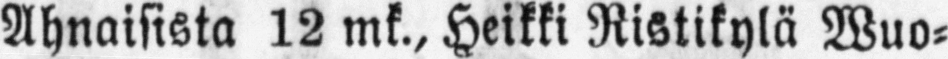Ahnaisista 12 mk., Heikki Ristikylä Wuo-
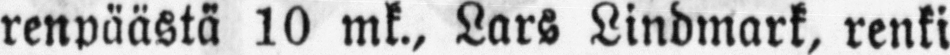renpäästä 10 mk., Lars Lindmark, renki
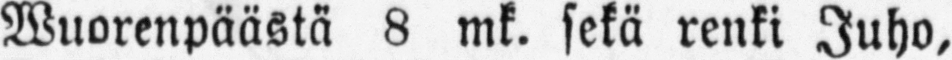Wuorenpäästä 8 mk. sekä renki Juho,
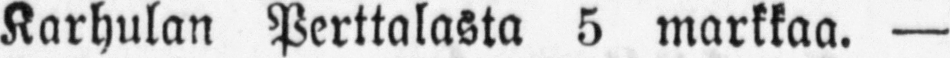Karhulan Perttalasta 5 markkaa. —
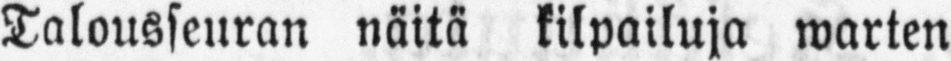Talousseuran näitä kilpailuja warten
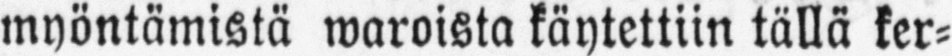myöntämistä waroista käytettiin tällä ker-
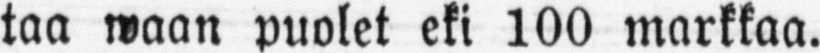taa waan puolet eki 100 markkaa.
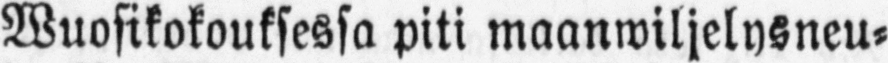Wuosikokouksessa piti maanwiljelysneu-
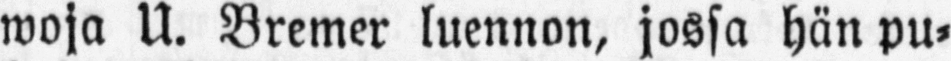woja U. Bremer luennon, jossa hän pu-
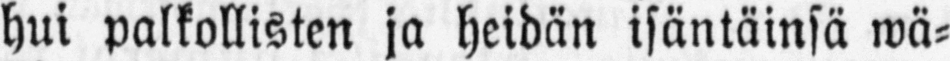hui palkollisten ja heidän isäntäinsä wä-
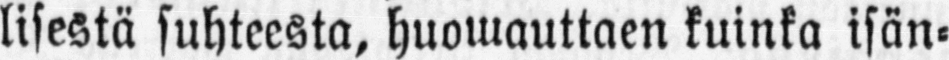lisestä suhteesta, huowauttaen kuinka isän-
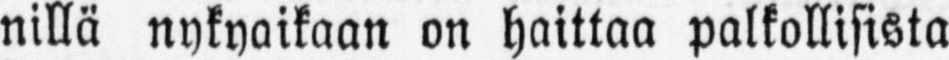nillä nykyaikaan on haittaa palkollisista
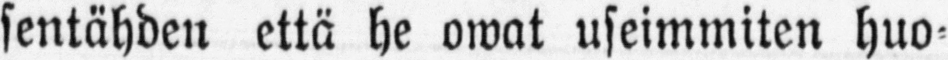sentähden että he owat useimmiten huo-
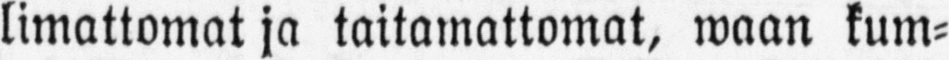limattomat ja taitamattomat, waan kum-
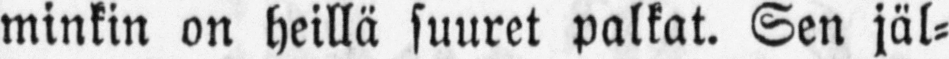minkin on heillä suuret palkat. Sen jäl-
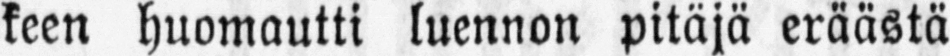keen huomautti luennon pitäjä eräästä
